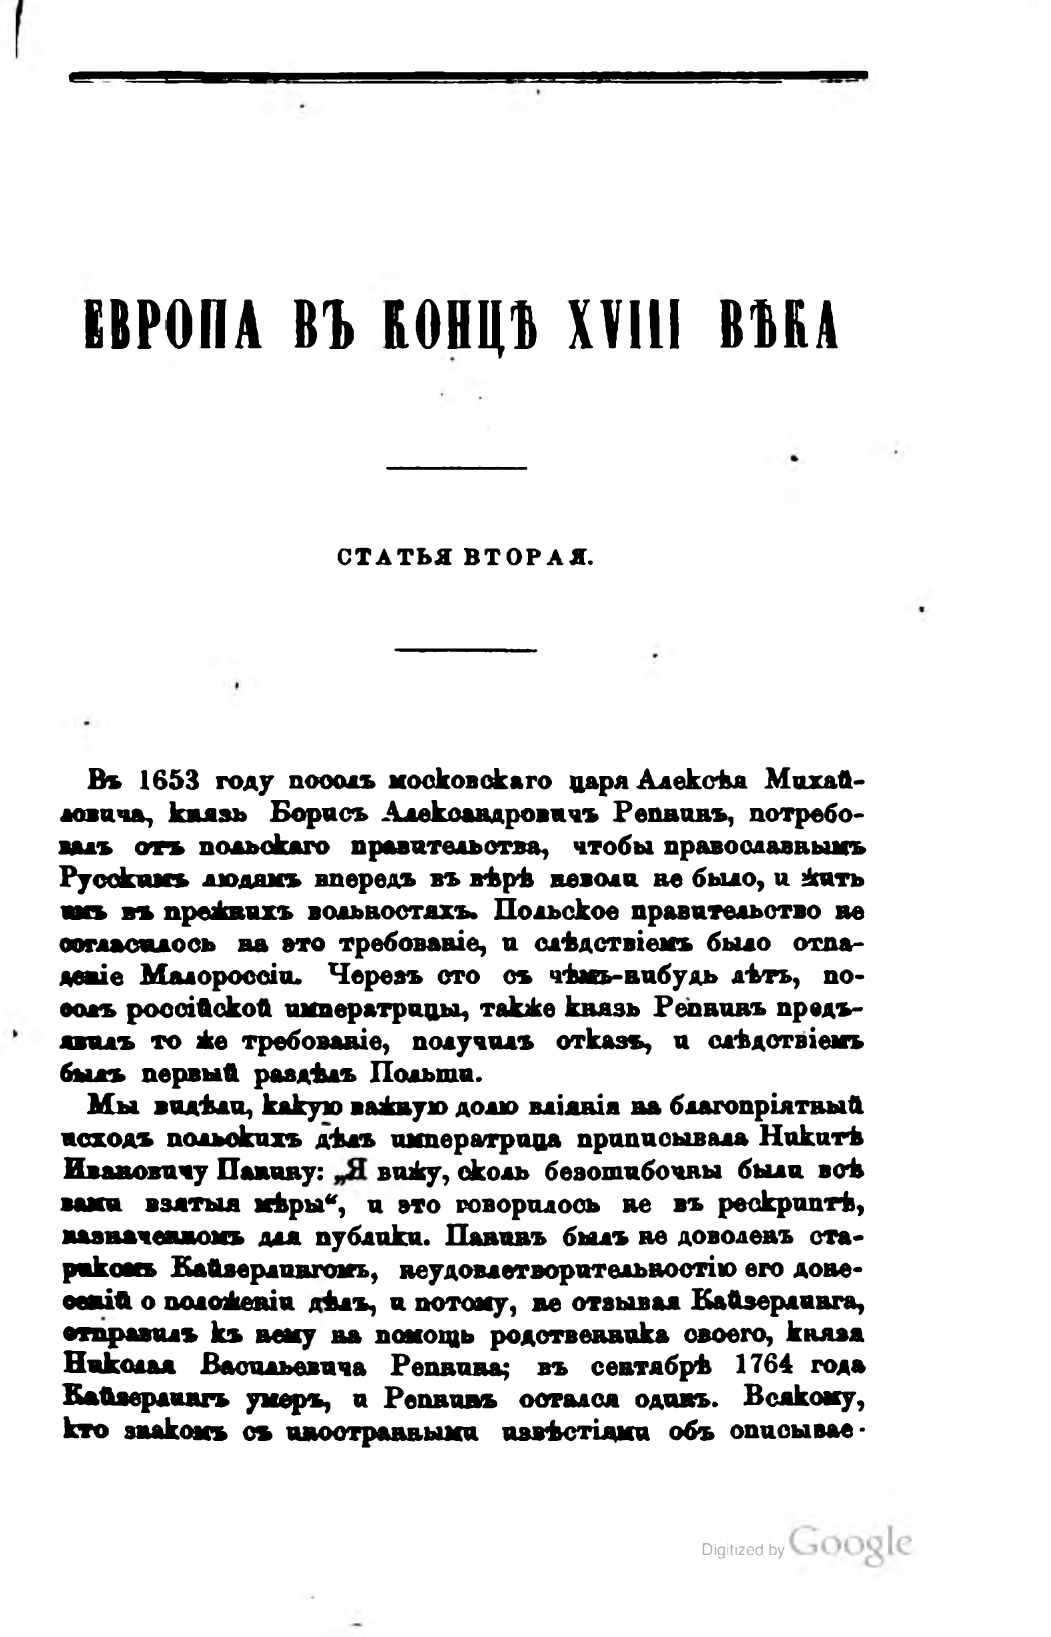ЕВРОПА ВЪ КОНЦѢ XVIII ВѢКА
СТАТЬЯ ВТОРАЯ.
Въ 1653 году посолъ московскаго царя Алексѣя Михайловича, князъ Борисъ Александровичъ Репнинъ, потребовалъ отъ польскаго правительства, чтобы православнымъ Русскимъ людямъ впередъ въ вѣрѣ неволи не было, и жить имъ въ прежнихъ вольностяхъ. Польское правительство не согласилось на это требованіе, и слѣдствіемъ было отпаденіе Малороссіи. Черезъ сто съ чѣмъ-нибудь лѣть, посолъ россійской императрицы, также князь Репнинъ предъявилъ то же требованіе, получилъ отказъ, и слѣдствіемъ былъ первый раздѣлъ Польши.
Мы видѣли, какую важную долю вліянія на благопріятный исходъ польскихъ дѣлъ императрица приписывала Никитѣ Ивановичу Панину: „Я вижу, сколь безошибочны были всѣ вами взятыя мѣры“, и это говорилось не въ рескриптѣ, назначенномъ для публики. Панинъ былъ не доволенъ старикомъ Кайзерлингомь, неудовлетворительностію его донесеній о положеніи дѣлъ, и потому, не отзывая Кайзерлинга, отправилъ къ нему на помощь родственника своего, князя Николая Васильевича Репнина; въ сентябрѣ 1764 года Кайзерлингъ умеръ, и Репнинъ остался одинъ. Всякому, кто знакомъ съ иностранными извѣстіями объ описывае-
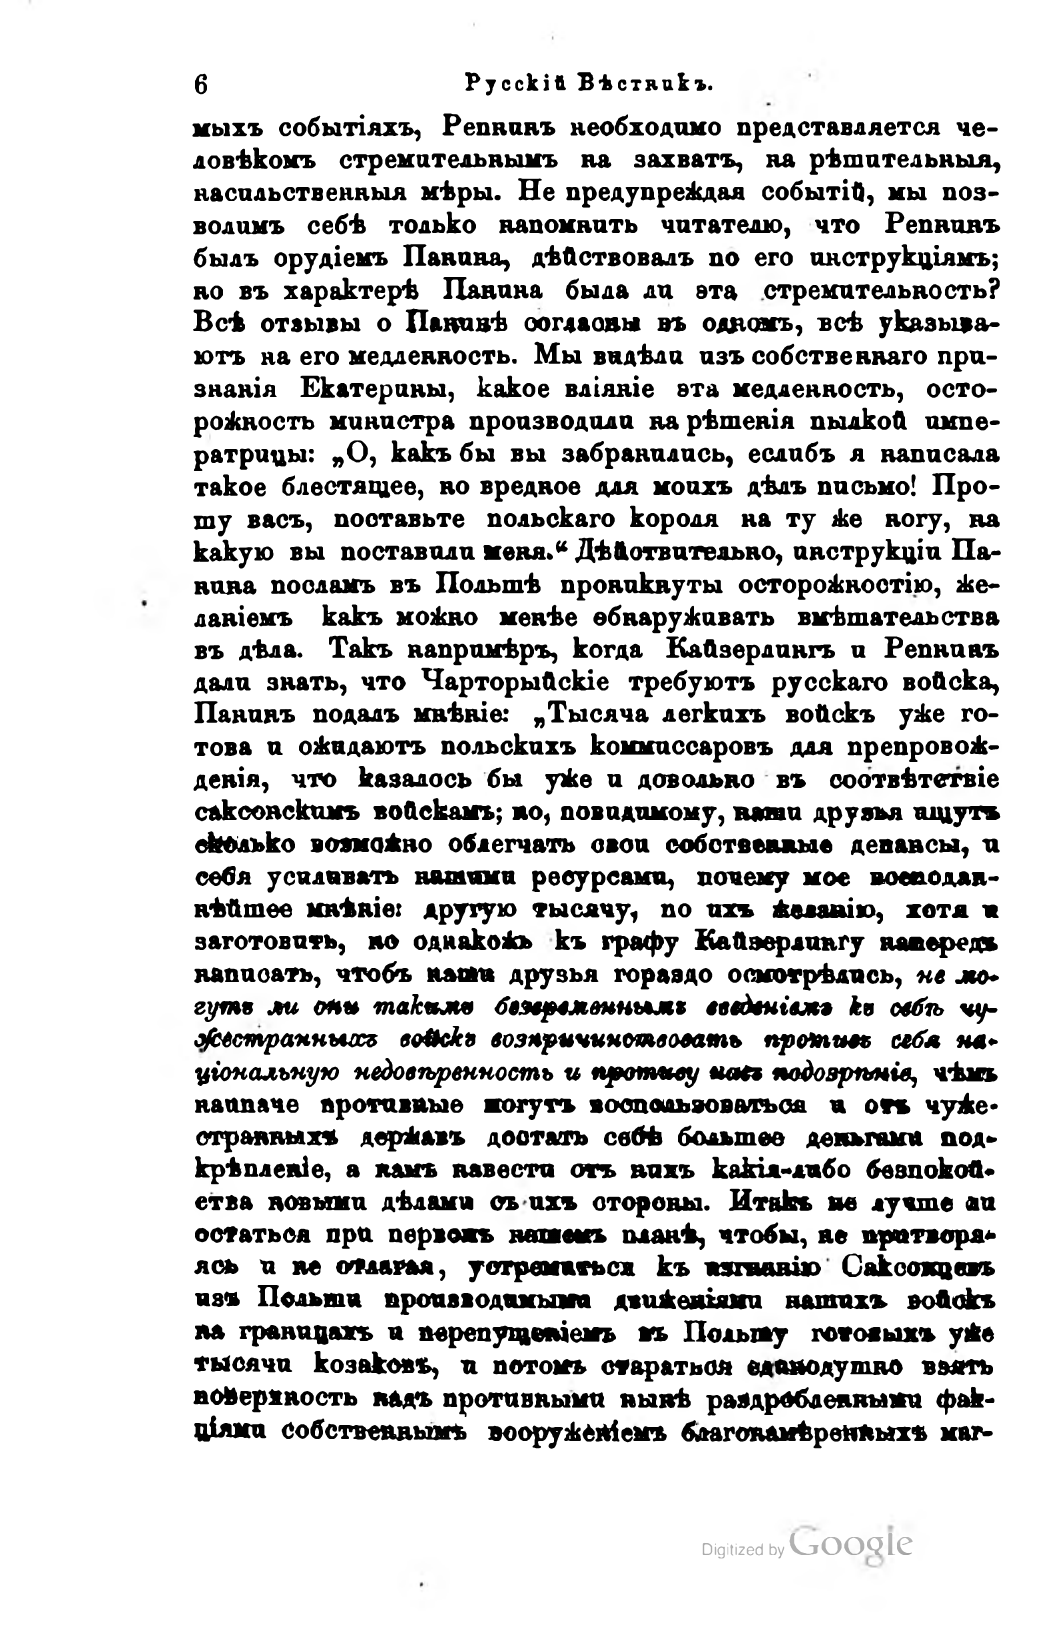6                  Русскій Вѣстникъ.
мыхъ событіяхъ, Репнинъ необходимо представляется человѣкомъ стремительнымъ на захватъ, на рѣшительныя, насильственныя мѣры. Не предупреждая событій, мы позволимъ себѣ только напомнить читателю, что Репнинъ былъ орудіемъ Панина, дѣйствовалъ по его инструкціямъ; но въ характерѣ Панина была ли эта стремительность? Всѣ отзывы о Панинѣ согласны въ одномъ, всѣ указываютъ на его медленность. Мы видѣли изъ собственнаго признанія Екатерины, какое вліяніе эта медленность, осторожность министра производили на рѣшенія пылкой императрицы: „О, какъ бы вы забранились, еслибъ я написала такое блестящее, но вредное для моихъ дѣлъ письмо! Прошу васъ, поставьте польскаго короля на ту же ногу, на какую вы поставили меня.“ Дѣйствительно, инструкціи Панина посламъ въ Польшѣ проникнуты осторожностію, желаніемъ какъ можно менѣе обнаруживать вмѣшательства въ дѣла. Такъ напримѣръ, когда Кайзерлингъ и Репнинъ дали знать, что Чарторыйскіе требуютъ русскаго войска, Панинъ подалъ мнѣніе: „Тысяча легкихъ войскъ уже готова и ожидаютъ польскихъ коммиссаровъ для препровожденія, что казалось бы уже и довольно въ соотвѣтствіе саксонскимъ войскамъ; но, повидимому, ваши друзья ищутъ сколько возможно облегчать свои собственные депансы, и себя усиливать нашими ресурсами, почему мое всеподаннѣйшее мнѣніе: другую тысячу, по ихъ желанію, хотя и заготовитъ, но однакожъ къ графу Кайзерлингу напередъ написать, чтобъ наши друзья гораздо осмотрѣлись, не могутъ ли они такимъ безвременнымъ введеніемъ къ себѣ чужестранныхъ войскъ возпричинствовать противъ себя національную недовѣренность и противу насъ подозрѣніе, чѣмъ наипаче противные могутъ воспользоваться и отъ чужестранныхъ державъ достать себѣ большее деньгами подкрѣпленіе, а намъ навести отъ нихъ какія-либо безпокойства новыми дѣлами съ ихъ стороны. Итакъ не лучше ли остаться при первомъ нашемъ планѣ, чтобы, не притворяясь и не отлагая, устремиться къ изгнанію Саксонцевъ изъ Польши производимыми движеніями нашихъ войскъ на границахъ и перепущеніемъ въ Польшу готовыхъ уже тысячи козаковъ, и потомъ стараться единодушно взять поверхность надъ противными нынѣ раздробленными факціями собственнымъ вооруженіемъ благонамѣренныхъ маг-
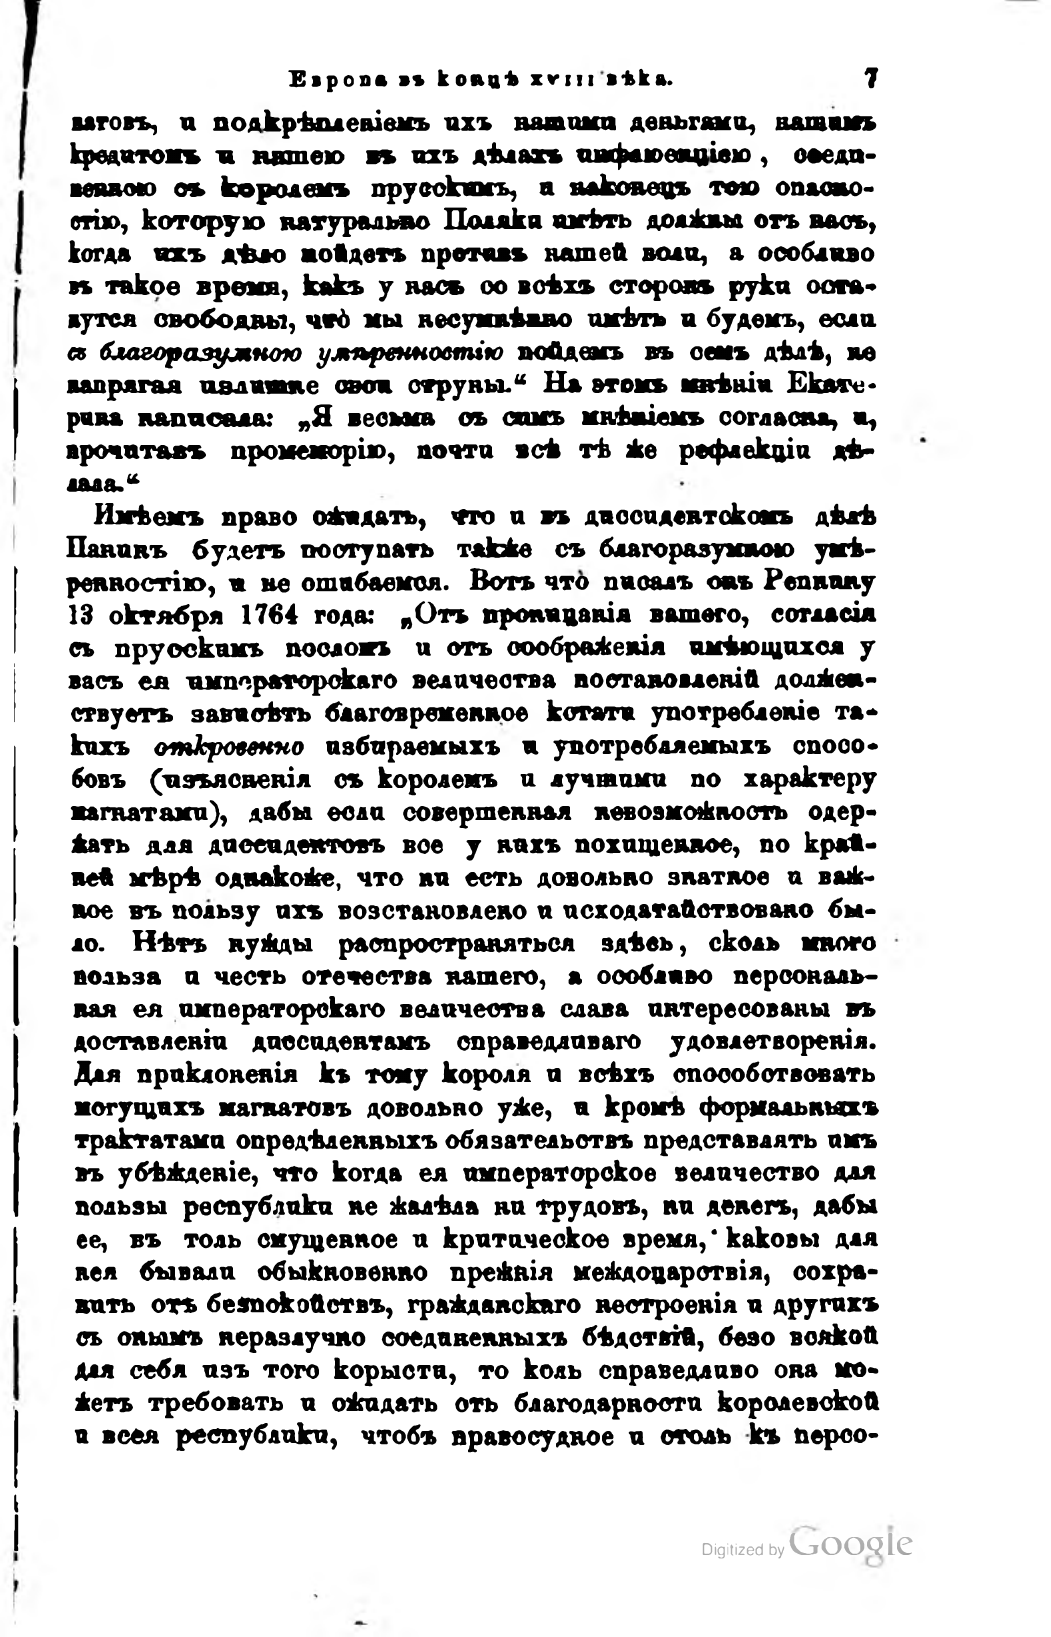Европа въ концѣ XVIII вѣка.                  7
натовъ, и подкрѣпленіемъ ихъ нашими деньгами, нашимъ кредитомъ и нашею въ ихъ дѣлахъ инфлюенціею, соединенною съ королемъ прусскимъ, и наконецъ тою опасностію, которую натурально Поляки имѣть должны отъ васъ, когда ихъ дѣло пойдетъ противъ вашей воли, а особливо въ такое время, какъ у насъ со всѣхъ сторонъ руки останутся свободны, что мы несумнѣнно имѣть и будемъ, если съ благоразумною умѣренностію пойдемъ въ семъ дѣлѣ, не напрягая излишне свои струны.“ На этомъ мнѣніи Екатерина написала: „Я весьма съ симъ мнѣніемъ согласна, и, прочитавъ промеморію, почти всѣ тѣ же рефлекціи дѣлала.“
Имѣемъ право ожидать, что и въ диссидентскомъ дѣлѣ Панинъ будетъ поступать также съ благоразумною умѣренностію, и не ошибаемся. Вотъ что писалъ онъ Репнину 13 октября 1764 года: „Отъ проницанія вашего, согласія съ прусскимъ посломъ и отъ соображенія имѣющихся у васъ ея императорскаго величества постановленій долженствуетъ зависѣть благовременное кстати употребленіе такихъ откровенно избираемыхъ и употребляемыхъ способовъ (изъясненія съ королемъ и лучшими по характеру магнатами), дабы если совершенная невозможность одержать для диссидентовъ все у нихъ похищенное, по крайней мѣрѣ однакоже, что ни есть довольно знатное и важное въ пользу ихъ возстановлено и исходатайствовано было. Нѣтъ нужды распространяться здѣсь, сколь много польза и честь отечества нашего, а особливо персональная ея императорскаго величества слава интересованы въ доставленіи диссидентахъ справедливаго удовлетворенія. Для приклоненія къ тому короля и всѣхъ способствовать могущихъ магнатовъ довольно уже, и кромѣ формальныхъ трактатами опредѣленныхъ обязательствъ представлять имъ въ убѣжденіе, что когда ея императорское величество для пользы республики не жалѣла ни трудовъ, ни денегъ, дабы ее, въ толь смущенное и критическое время, каковы для нея бывали обыкновенно прежнія междоцарствія, сохранить отъ безпокойствъ, гражданскаго нестроенія и другихъ съ онымъ неразлучно соединенныхъ бѣдствій, безо всякой для себя изъ того корысти, то коль справедливо она можетъ требовать и ожидать отъ благодарности королевской и всея республики, чтобъ правосудное и столь къ персо-
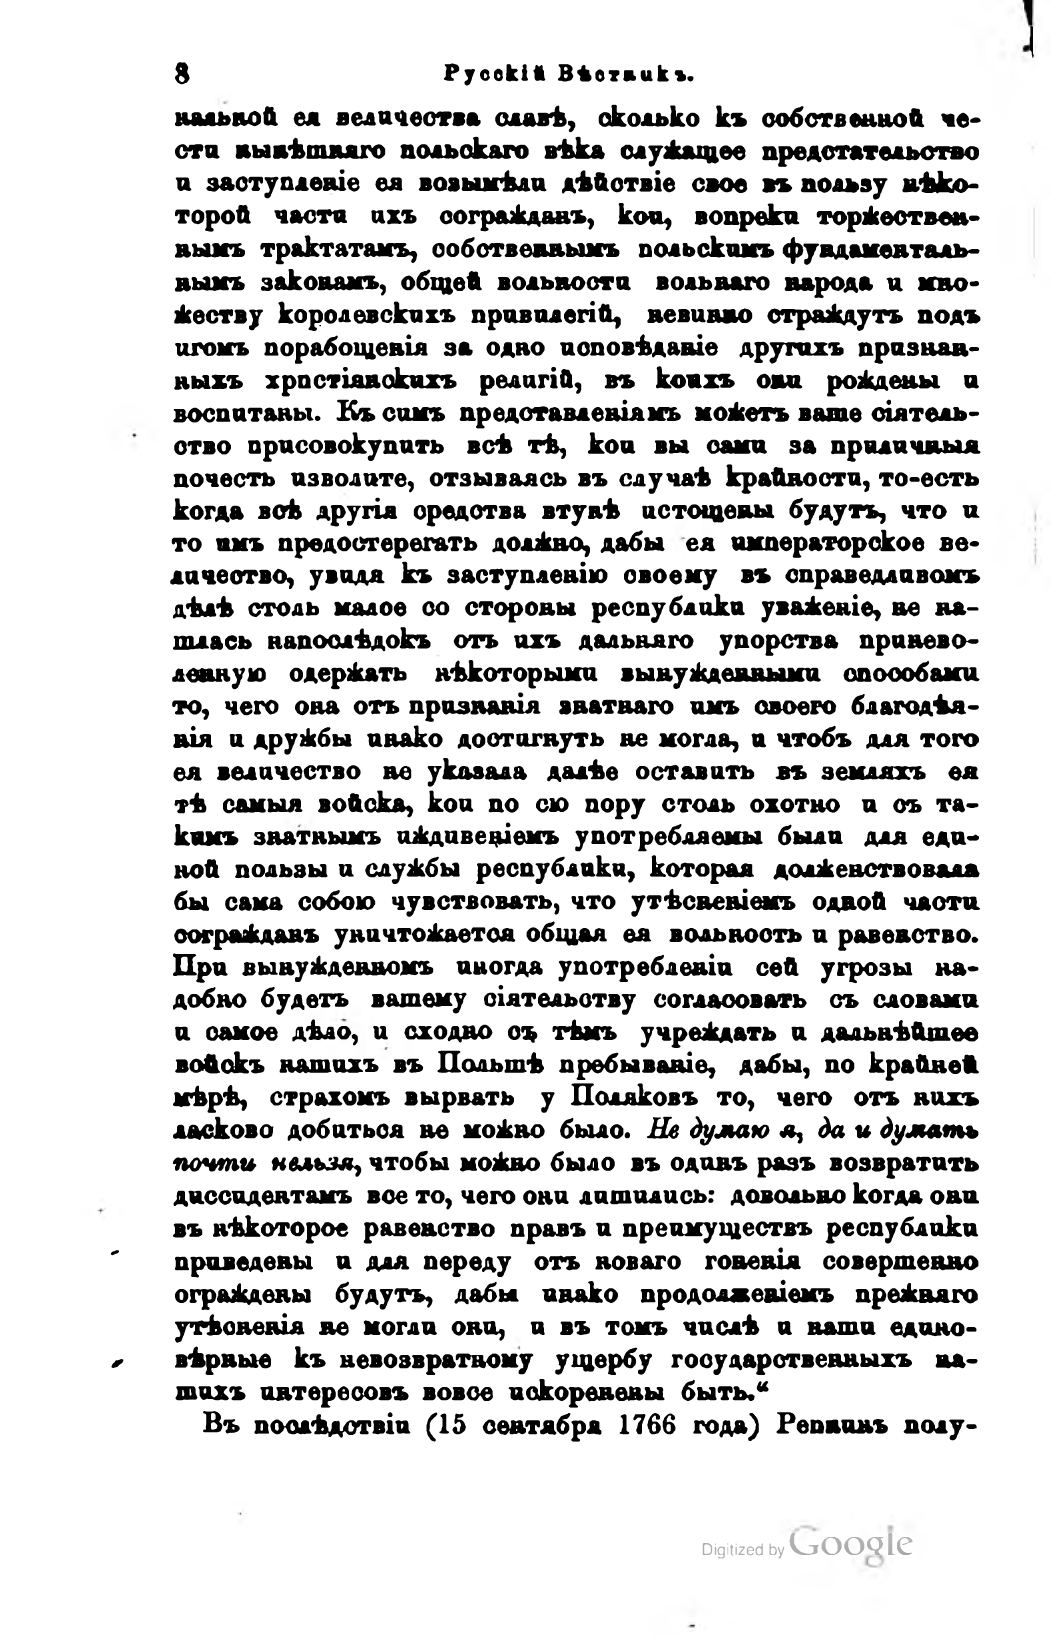8                  Русскій Вѣстникъ.
нальной ея величества славѣ, сколько къ собственной мести нынѣшняго польскаго вѣка служащее предстательство и заступленіе ея возымѣли дѣйствіе свое въ пользу нѣкоторой части ихъ согражданъ, кои, вопреки торжественнымъ трактатамъ, собственнымъ польскимъ фундаментальнымъ законамъ, общей вольности вольнаго народа и множеству королевскихъ привилегій, невинно страждутъ подъ игомъ порабощенія за одно исповѣданіе другихъ признанныхъ христіанскихъ религій, въ коихъ они рождены и воспитаны. Къ симъ представленіямъ можетъ ваше сіятельство присовокупить всѣ тѣ, кои вы сами за приличныя почесть изволите, отзываясь въ случаѣ крайности, то-есть когда всѣ другія средства втунѣ истощены будутъ, что и то имъ предостерегать должно, дабы ея императорское величество, увидя къ заступленію своему въ справедливомъ дѣлѣ столь малое со стороны республики уваженіе, не нашлась напослѣдокъ отъ ихъ дальняго упорства приневоленную одержать нѣкоторыми вынужденными способами то, чего она отъ признанія знатнаго имъ своего благодѣянія и дружбы инако достигнуть не могла, и чтобъ для того ея величество не указала далѣе оставить въ земляхъ ея тѣ самыя войска, кои по сю пору столь охотно и съ такимъ знатнымъ иждивеніемъ употребляемы были для единой пользы и службы республики, которая долженствовала бы сама собою чувствовать, что утѣсненіемъ одной части согражданъ уничтожается общая ея вольность и равенство. При вынужденномъ иногда употребленіи сей угрозы надобно будетъ вашему сіятельству согласовать съ словами и самое дѣло, и сходно съ тѣмъ учреждать и дальнѣйшее войскъ нашихъ въ Польшѣ пребываніе, дабы, по крайней мѣрѣ, страхомъ вырвать у Поляковъ то, чего отъ нихъ ласково добиться не можно было. Не думаю я, да и думать почти нельзя, чтобы можно было въ одинъ разъ возвратить диссидентамъ все то, чего они лишились: довольно когда они въ нѣкоторое равенство правъ и преимуществъ республики приведены и для переду отъ новаго гоненія совершенно ограждены будутъ, дабы инако продолженіемъ прежняго утѣсненія не могли они, и въ томъ числѣ и наши единовѣрные къ невозвратному ущербу государственныхъ нашихъ интересовъ вовсе искоренены быть.“
Въ послѣдствіи (15 сентября 1766 года) Репнинъ полу-